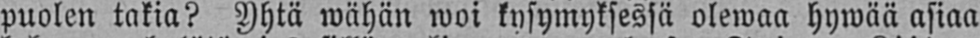puolen takia? Yhtä wähän woi kysymyksessä olewaa hywää asiaa
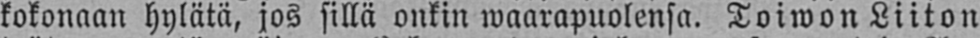kokonaan hylätä, jos sillä onkin waarapuolensa. Toiwon Liiton
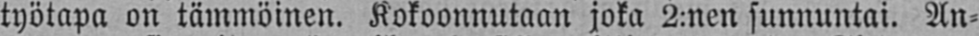työtapa on tämmöinen. Kokoonnutaan joka 2:nen sunnuntai. An-
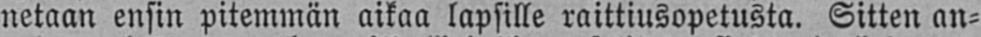netaan ensin pitemmän aikaa lapsille raittiusopetusta. Sitten an-
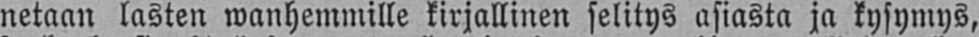netaan lasten wanhemmille kirjallinen selitys asiasta ja kysymys,
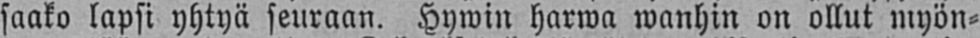saako lapsi yhtyä seuraan. Hywin harwa wanhin on ollut myön-
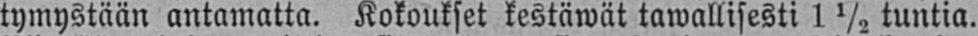tymystään antamatta. Kokoukset kestäwät tawallisesti 1½ tuntia.
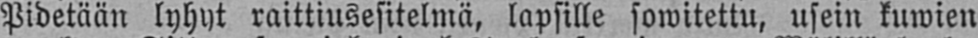Pidetään lyhyt raittiusesitelmä, lapsille sowitettu, usein kuwien
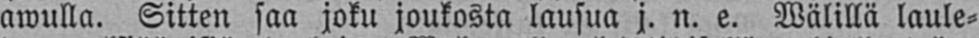awulla. Sitten saa joku joukosta lausua j. n. e. Wälillä laule-
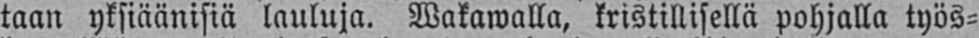taan yksiäänisiä lauluja. Wakawalla, kristillisellä pohjalla työs-
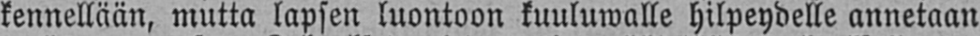kennellään, mutta lapsen luontoon kuuluwalle hilpeydelle annetaan
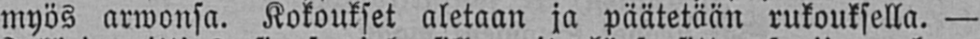myös arwonsa. Kokoukset aletaan ja päätetään rukouksella. —
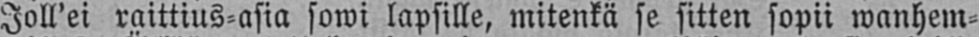Joll'ei raittius-asia sowi lapsille, mitenkä se sitten sopii wanhem-
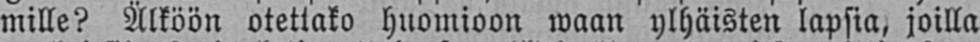mille? Älköön otettako huomioon waan ylhäisten lapsia, joilla
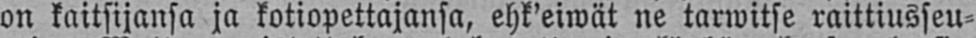on kaitsijansa ja kotiopettajansa, ehk'eiwät ne tarwitse raittiusseu-
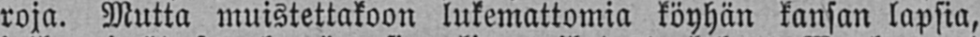roja. Mutta muistettakoon lukemattomia köyhän kansan lapsia,
